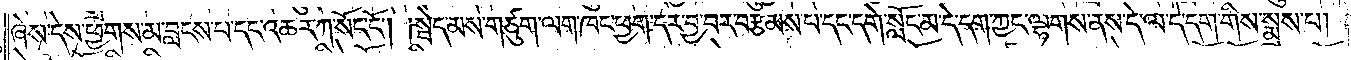ཞེས་དེས་ཕྱགས་མ་བླངས་པ་དང་འཆར་ཀ་སོང་ངོ༌། །སྦེད་མས་གཙུག་ལག་ཁང་ཕྱག་དར་བྱ་བར་བརྩམས་པ་དང་དགེ་སློང་མ་དེ་དག་ཀྱང་ལྷགས་ནས་དེ་ལ་དེ་དག་གིས་སྨྲས་པ།
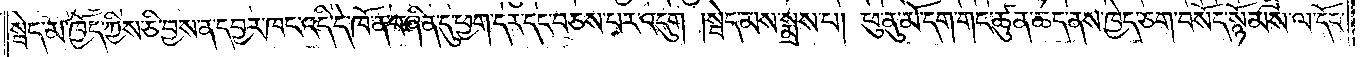སྦེད་མ་ཁྱོད་ཀྱིས་ཅི་བྱས་ན་དབྱར་ཁང་འདི་དེ་ཁོ་ན་བཞིན་དུ་ཕྱག་དར་དང་བཅས་པར་འདུག །སྦེད་མས་སྨྲས་པ། ཕུ་ནུ་མོ་དག་གང་ཚུན་ཆད་ནས་ཁྱེད་ཅག་བསོད་སྙོམས་ལ་དོང་
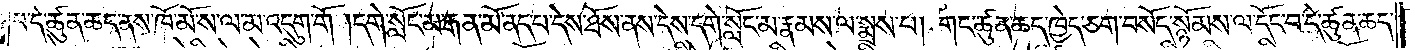བ་དེ་ཚུན་ཆད་ནས་ཁོ་མོ་ས་ལ་མ་འདུག་གོ །དགེ་སློང་མ་རྒན་མོ་ནད་པ་དེས་ཐོས་ནས་དེས་དགེ་སློང་མ་རྣམས་ལ་སྨྲས་པ། གང་ཚུན་ཆད་ཁྱེད་ཅག་བསོད་སྙོམས་ལ་དོང་བ་དེ་ཚུན་ཆད་
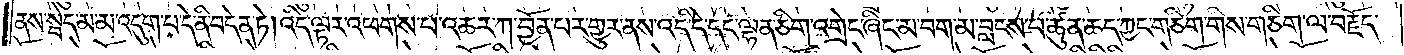ནས་སྦེད་མ་མ་འདུག་པ་དེ་ནི་བདེན་ཏེ། འདི་ལྟར་འཕགས་པ་འཆར་ཀ་བྱོན་པར་གྱུར་ནས་འདི་དེ་དང་ལྷན་ཅིག་འགྲེང་ཞིང་མ་བག་མ་བླངས་པ་ཚུན་ཆད་ཀྱང་གཅིག་གིས་གཅིག་ལ་བརྗོད་
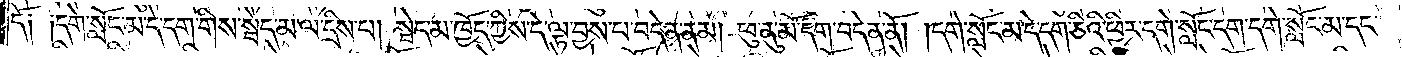དོ༑ ༑དགེ་སློང་མ་དེ་དག་གིས་སྦེད་མ་ལ་དྲིས་པ། སྦེད་མ་ཁྱོད་ཀྱིས་དེ་ལྟ་བྱས་པ་བདེན་ནམ། ཕུ་ནུ་མོ་དག་བདེན་ནོ། །དགེ་སློང་མ་དེ་དག་ཅིའི་ཕྱིར་དགེ་སློང་དག་དགེ་སློང་མ་དང་
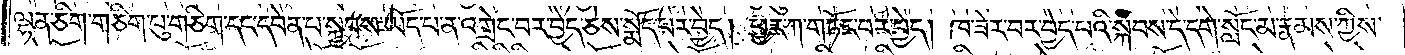ལྷན་ཅིག་གཅིག་པུ་གཅིག་དང་དབེན་པ་སྐྱབས་ཡོད་པ་ན་འགྲེང་བར་བྱེད་ཅེས་སྨོད་པར་བྱེད། ཕྱར་ཀ་གཏོང་བར་བྱེད། ཁ་ཟེར་བར་བྱེད་པའི་སྐབས་དེ་དགེ་སློང་མ་རྣམས་ཀྱིས་
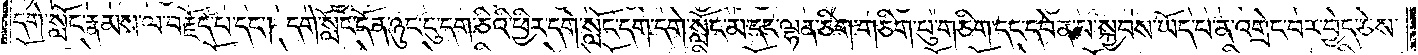དགེ་སློང་རྣམས་ལ་བརྗོད་པ་དང༌། དགེ་སློང་དོན་ཉུང་ངུ་དག་ཅིའི་ཕྱིར་དགེ་སློང་དག་དགེ་སློང་མ་དང་ལྷན་ཅིག་གཅིག་པུ་གཅིག་དང་དབེན་པ་སྐྱབས་ཡོད་པ་ན་འགྲེང་བར་བྱེད་ཅེས་
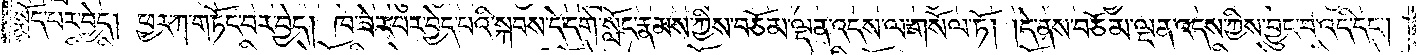སྨོད་པར་བྱེད། ཕྱར་ཀ་གཏོང་བར་བྱེད། ཁ་ཟེར་བར་བྱེད་པའི་སྐབས་དེ་དགེ་སློང་རྣམས་ཀྱིས་བཅོམ་ལྡན་འདས་ལ་གསོལ་ཏོ། །དེ་ནས་བཅོམ་ལྡན་འདས་ཀྱིས་བྱུང་བ་འདི་དང༌།
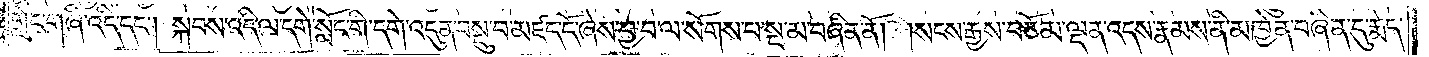གླེང་གཞི་འདི་དང༌། སྐབས་འདི་ལ་དགེ་སློང་གི་དགེ་འདུན་བསྡུ་བ་མཛད་དོ་ཞེས་བྱ་བ་ལ་སོགས་པ་སྔ་མ་བཞིན་ནོ། །སངས་རྒྱས་བཅོམ་ལྡན་འདས་རྣམས་ནི་མཁྱེན་བཞིན་དུ་རྨེད་
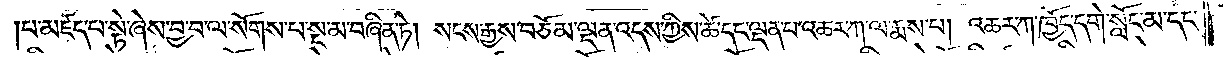པ་མཛད་པ་སྟེ་ཞེས་བྱ་བ་ལ་སོགས་པ་སྔ་མ་བཞིན་ཏེ། སངས་རྒྱས་བཅོམ་ལྡན་འདས་ཀྱིས་ཚེ་དང་ལྡན་པ་འཆར་ཀ་ལ་རྨས་པ། འཆར་ཀ་ཁྱོད་དགེ་སློང་མ་དང་
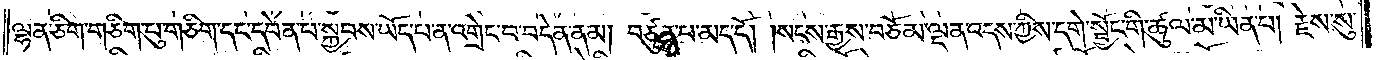ལྷན་ཅིག་གཅིག་པུ་གཅིག་དང་དབེན་པ་སྐྱབས་ཡོད་པ་ན་འགྲེང་བ་བདེན་ནམ། བཙུན་པ་མད་དོ། །སངས་རྒྱས་བཅོམ་ལྡན་འདས་ཀྱིས་དགེ་སྦྱོང་གི་ཚུལ་མ་ཡིན་པ། རྗེས་སུ་
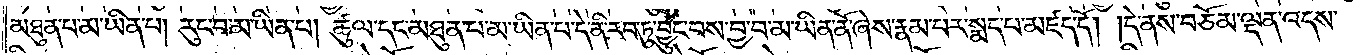མཐུན་པ་མ་ཡིན་པ། རུང་བ་མ་ཡིན་པ། ཚུལ་དང་མཐུན་པ་མ་ཡིན་པ་དེ་ནི་རབ་ཏུ་བྱུང་བས་བྱ་བ་མ་ཡིན་ནོ་ཞེས་རྣམ་པར་སྨད་པ་མཛད་དོ། །དེ་ནས་བཅོམ་ལྡན་འདས་
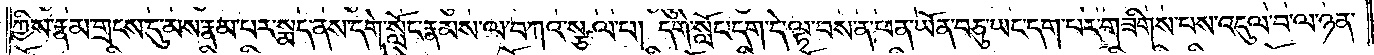ཀྱིས་རྣམ་གྲངས་དུ་མས་རྣམ་པར་སྨད་ནས་དགེ་སློང་རྣམས་ལ་བཀའ་སྩལ་པ། དགེ་སློང་དག་དེ་ལྟ་བས་ན་ཕན་ཡོན་བཅུ་ཡང་དག་པར་གཟིགས་པས་འདུལ་བ་ལ་ཉན་
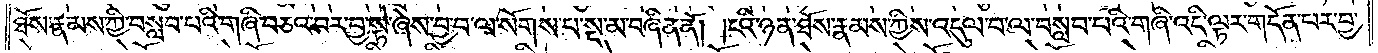ཐོས་རྣམས་ཀྱི་བསླབ་པའི་གཞི་བཅའ་བར་བྱ་སྟེ་ཞེས་བྱ་བ་ལ་སོགས་པ་སྔ་མ་བཞིན་ནོ། །ངའི་ཉན་ཐོས་རྣམས་ཀྱིས་འདུལ་བ་ལ་བསླབ་པའི་གཞི་འདི་ལྟར་གདོན་པར་བྱ་
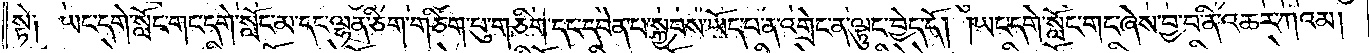སྟེ༑ ཡང་དགེ་སློང་གང་དགེ་སློང་མ་དང་ལྷན་ཅིག་གཅིག་པུ་གཅིག་དང་དབེན་པ་སྐྱབས་ཡོད་པ་ན་འགྲེང་ན་ལྟུང་བྱེད་དོ། །ཡང་དགེ་སློང་གང་ཞེས་བྱ་བ་ནི་འཆར་ཀའམ།
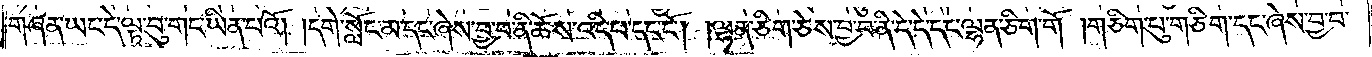གཞན་ཡང་དེ་ལྟ་བུ་གང་ཡིན་པའོ། །དགེ་སློང་མ་དང་ཞེས་བྱ་བ་ནི་ཆོས་འདི་པ་དང་ངོ༌། །ལྷན་ཅིག་ཅེས་བྱ་བ་ནི་དེ་དེ་དང་ལྷན་ཅིག་གོ །གཅིག་པུ་གཅིག་དང་ཞེས་བྱ་བ་
